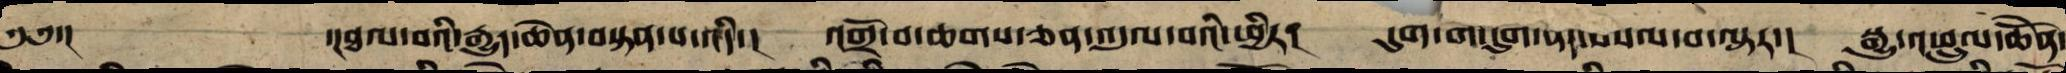༄༅་།  ་།ཐལ་བའི་རྒྱུད་ཆེན་བསྟན་པ་འདི་། འགྲོ་བ་ཆགས་ཅན་འདུལ་བའི་ཕྱིར་། དུག་གི་དུག་ནད་བསལ་བ་ལྟར་། སྒྱུ་འཕྲུལ་ཆེནོ་
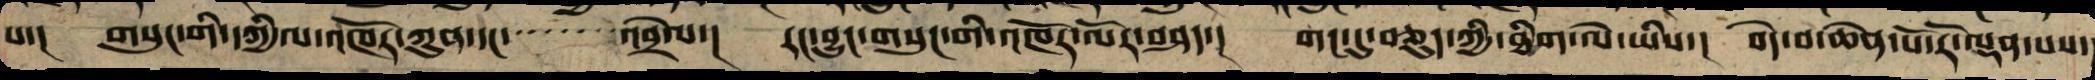པ་། གསུང་གི་དཀྱིལ་འཁོར་ཀུན་དང་     འབྲེལ་། རང་བྱུང་གསུང་གི་འཁོར་ལོར་བཤད་། གང་དུ་བཅུད་ཀྱི་ཐིག་ལེ་ཡིས་། བདེ་བ་ཆེན་པོའི་རོ་ལྡན་པས་
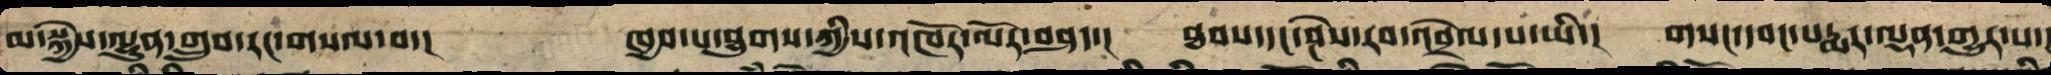མ་སྐྱེས་ལྷུན་གྲུབ་རང་གསལ་བ་། ཁྱབ་པ་ཐུགས་ཀྱིས་འཁོར་ལོར་བཤད་། ཐབས་དང་ཤེས་རབ་འབྲེལ་པ་ཡི་། གསང་དབང་པདྨར་ལྡན་གྱུར་པ་།
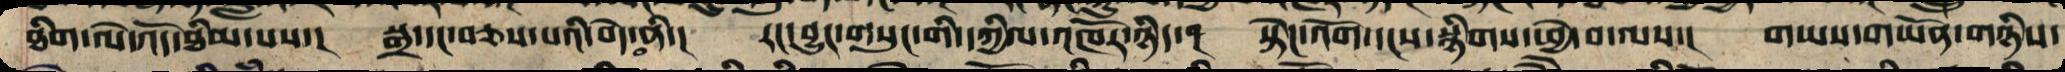ཐིག་ལེ་འོད་ཐིམ་པས་། སྒྲ་དང་བཅས་པའི་བདེ་བ་ནི་། རང་སྣང་གསུང་གི་དཀྱིལ་འཁོར་ཉིད་། སྟེང་འོག་དངས་སྙིགས་ཕྱེ་བ་ལས་། གཡས་གཡོན་གཉིས་
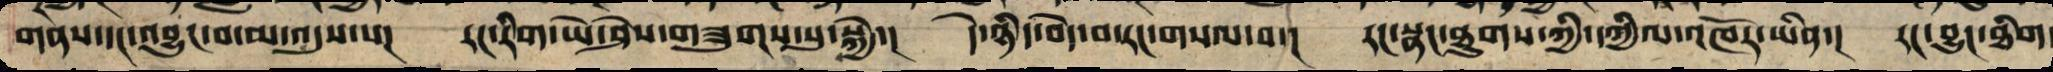གནས་དང་འབྱུང་བ་མ་ལུས་པ་། རང་རིག་ཡེ་ཤེས་གཟུགས་སུ་སྐྱེ་། དེ་ཉིད་བདེ་བར་རང་གསལ་བ་། རང་སྣང་ཐུགས་ཀྱི་དཀྱིལ་འཁོར་ཡིན་། རང་བྱུང་ཐིག
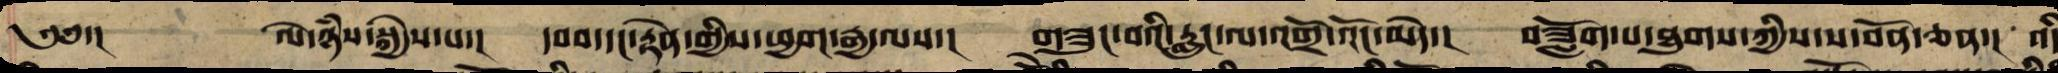༄༅་། ལེ་ཉཾས་སྐྱེས་པ་། དབབ་དང་རྟེན་གྱི་ཕྱག་རྒྱ་ལས་། གཟུང་བའི་རླུང་ལ་འགྲོ་འོང་མེད་། བཟློག་པ་ཐུགས་ཀྱི་ས་བོན་ཅན་། འདི
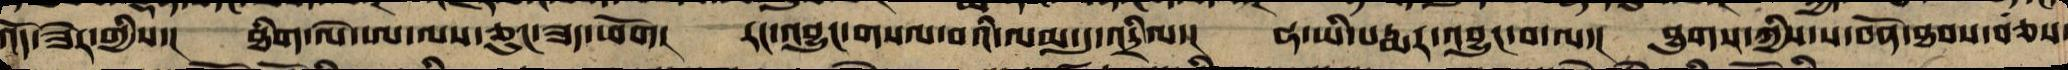འོད་ཟེར་གྱིས་། ཐིག་ལེ་ཨ་ལས་ཅུང་ཟད་ཕོག། རང་བྱུང་གསལ་བའི་ལམ་དུ་འདྲིལ་། ཧ་ཡི་པདྨར་འབྱུང་བ་ལ་། ཐུགས་ཀྱི་ས་བོན་ཐབས་བཅས་
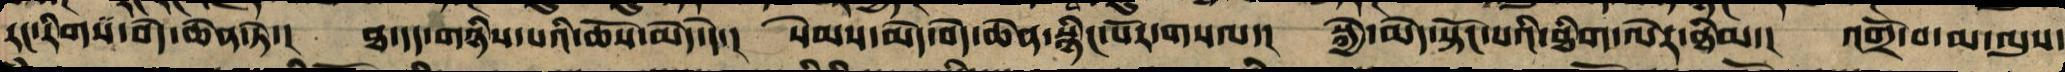རང་རིག་བདེ་ཆེན་ཏེ་། ཐ་དད་གཉིས་པའི་ཆོས་མེད་དེ་། སེམས་མེད་བདེ་ཆེན་སྙིང་པོར་གསལ་། སྐྱེ་མེད་སྟོང་པའི་ཐིག་ལེར་ཐིམ་། འགྲོ་བ་མ་ལུས་
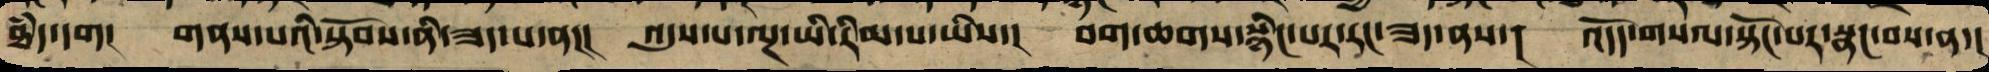ཐཾད་དག། གནས་པའི་སྟོབས་ནི་ཟད་པ་ན།།། འདུས་པ་ལྔ་ཡི་རིམ་པ་ཡིས་། བག་ཆགས་སྙིང་པོར་རང་ཟད་ནས་། འོད་གསལ་སྟོང་པར་སྣང་བས་ན་།
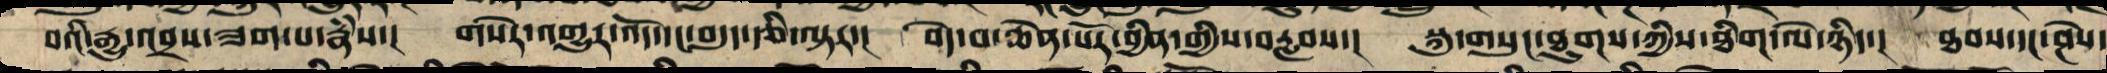བའི་རྒྱུ་འབྲས་ཟག་པ་རྣཾས་། གསེར་འགྱུར་འོད་དང་བདུད་རྩི་ལྟར་། བདེ་བ་ཆེན་པོར་བྱིན་གྱིས་བརླབ་། སྐུ་གསུང་ཐུགས་ཀྱི་ཐིག་ལེ་ཉིད་། ཐབས་དང་ཤེས་
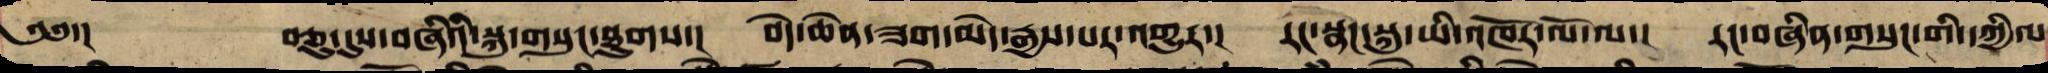༄༅་། བཅུ་དུས་བཞིའི་སྐུ་གསུང་ཐུགས་། བདེ་ཆེན་ཟག་མེད་རྒྱས་པར་འགྱུར་། རང་སྣང་སྐུ་ཡི་འཁོར་ལོ་ལ་། རང་བཞིན་གསུང་གི་དཀྱིལ
